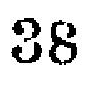38
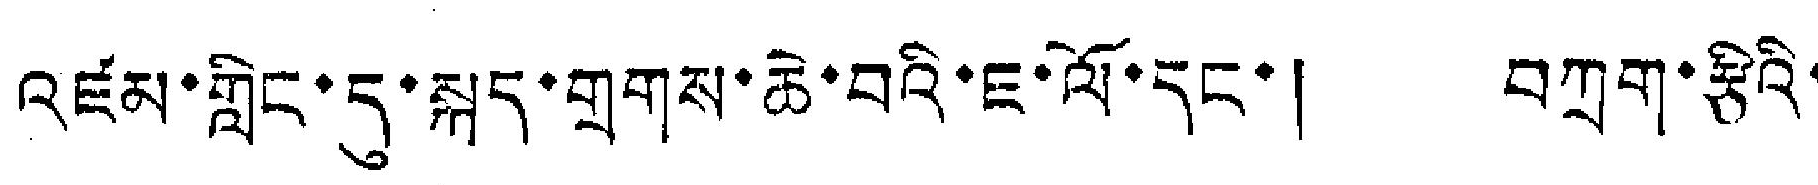འཛམ་གླིང་དུ་སྐད་གྲགས་ཆེ་བའི་ཇ་ལོ་དང་། བཀྲག་རྩིའི་
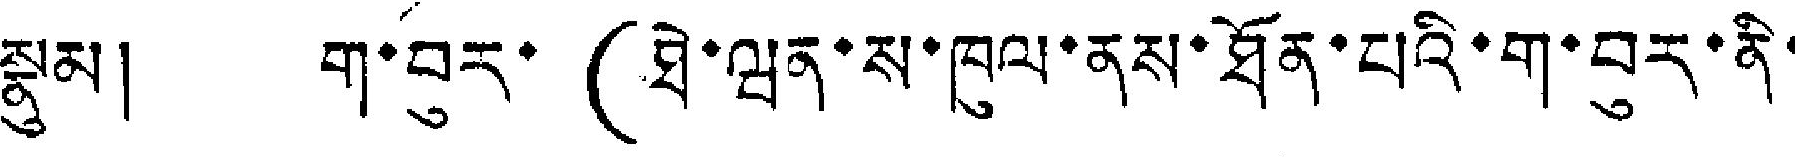རྣུམ། ག་བུར་(ཐེ་ཝན་ས་ཁུལ་ནས་ཐོན་པའི་ག་བུར་ནི་
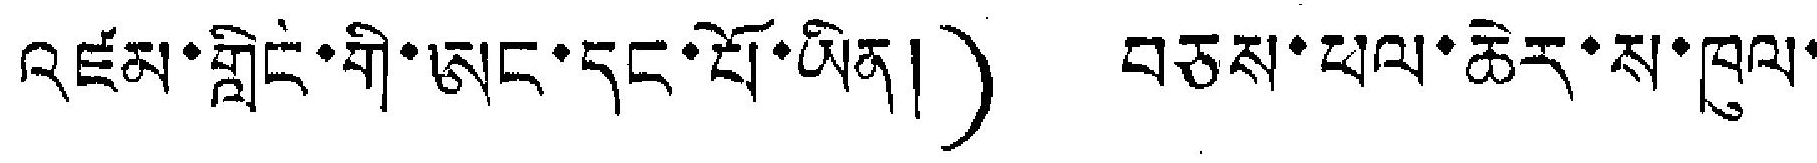འཛམ་གླིང་གི་ཨང་དང་པོ་ཡིན།) བཅས་ཕལ་ཆེར་ས་ཁུལ་
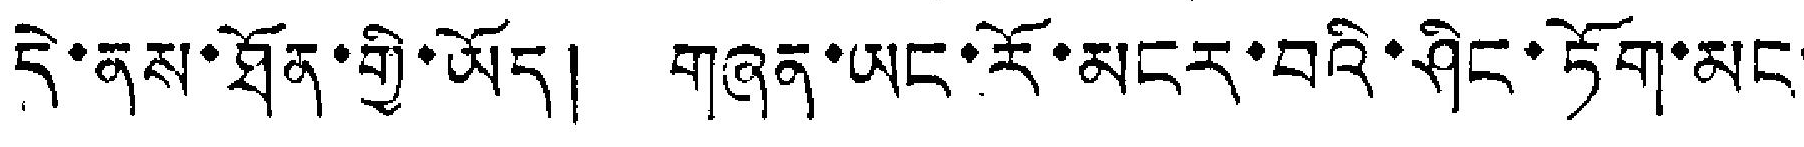དེ་ནས་ཐོན་གྱི་ཡོད། གཞན་ཡང་རོ་མངར་བའི་ཤིང་ཏོག་མང་
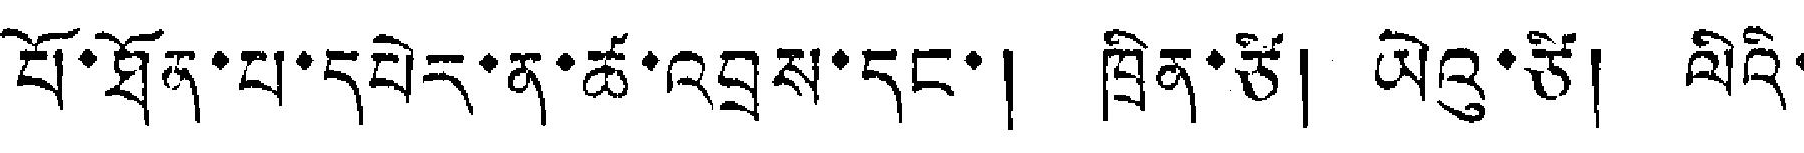པོ་ཐོན་པ་དཔེར་ན་ཚ་འབྲས་དང་། ཁྲིན་ཙི། ཡེའུ་ཙི། ལིའི་
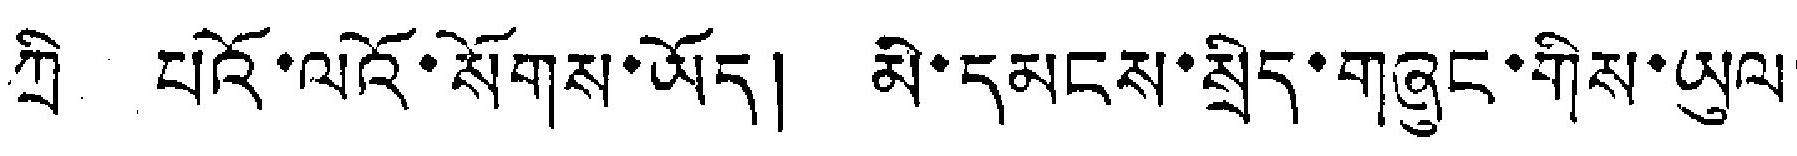ཀྲི པའོ་ལའོ་སོགས་ཡོད། མི་དམངས་སྲིད་གཞུང་གིས་ཡུལ་
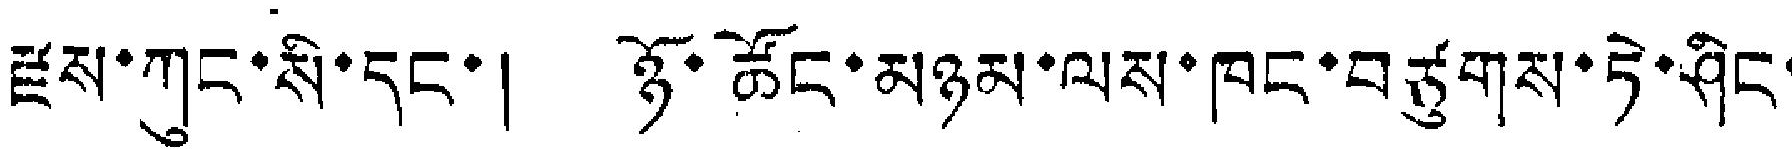རྫས་ཀུང་སི་དང་། ཉོ་ཚོང་མཉམ་ལས་ཁང་བཙུགས་ཏེ་ཤིང་
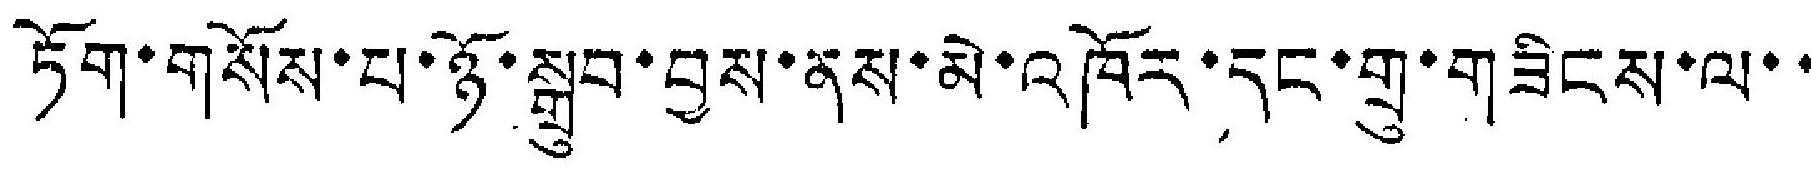ཏོག་གསོས་པ་ཉོ་སྒྲུབ་བྱས་ནས་མེ་འཁོར་དང་གྲུ་གཟིངས་ལ་་
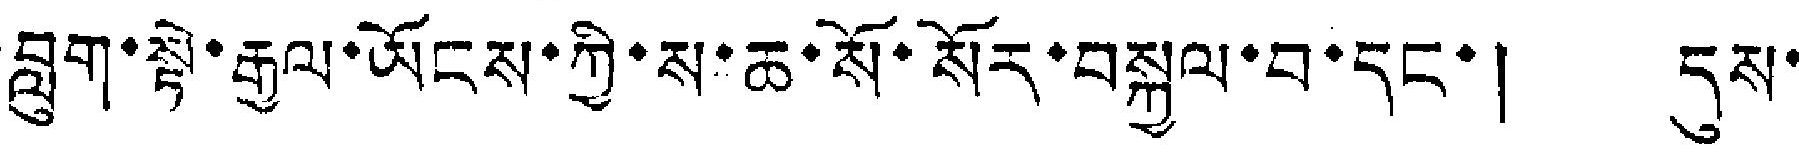བླུག་སྟེ་རྒྱལ་ཡོངས་ཀྱི་ས་ཆ་སོ་སོར་བསྐྱལ་བ་དང་། དུས་
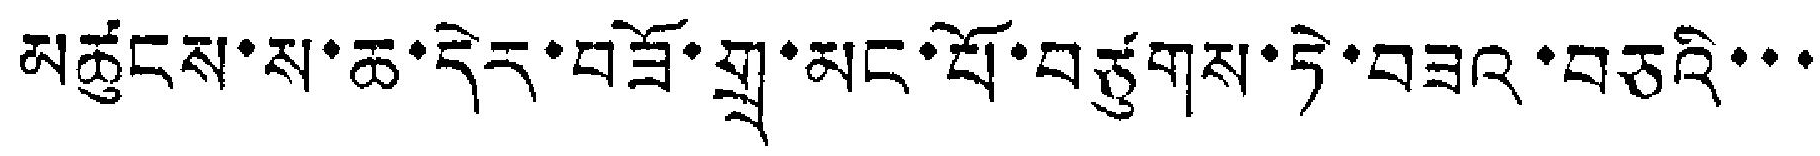མཚུངས་ས་ཆ་དེར་བཟོ་གྲྭ་མང་པོ་བཙུགས་ཏེ་བཟའ་བཅའི་་་
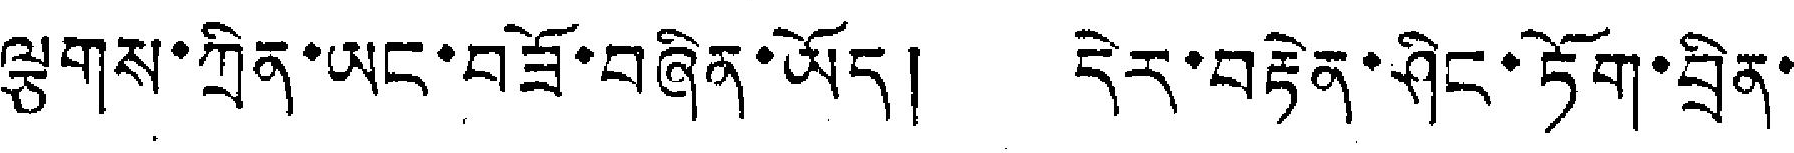ལྕགས་ཀྲིན་ཡང་བཟོ་བཞིན་ཡོད། དེར་བརྟེན་ཤིང་ཏོག་བྲིན་
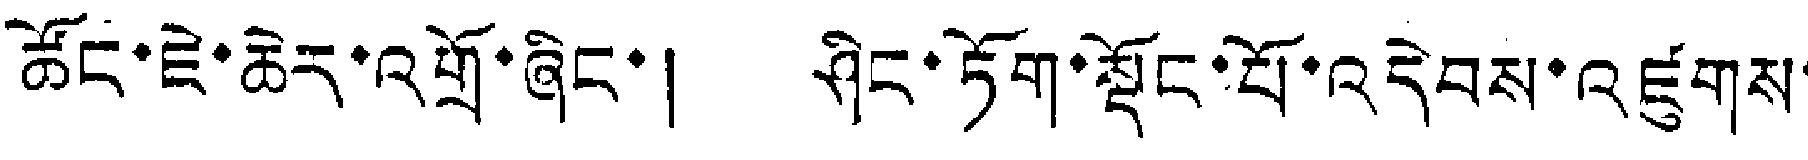ཚོང་ཇེ་ཆེར་འགྲོ་ཞིང་། ཤིང་ཏོག་སྡོང་པོ་འདེབས་འཛུགས་
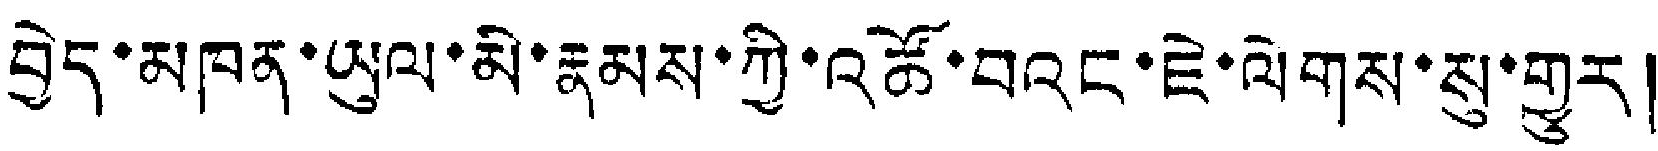བྱེད་མཁན་ཡུལ་མི་རྣམས་ཀྱི་འཚོ་བའང་ཇེ་ལེགས་སུ་གྱུར།
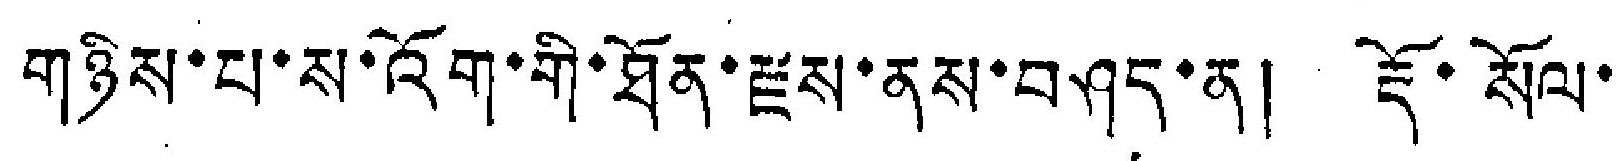གཉིས་པ་ས་འོག་གི་ཐོན་རྫས་ནས་བཤད་ན། རྡོ་སོལ་
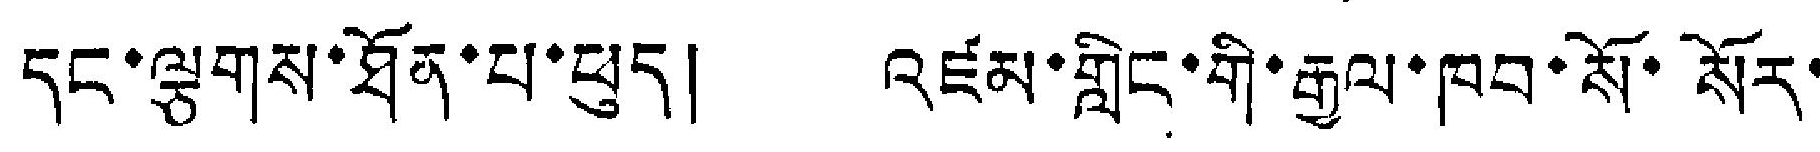དང་ལྕགས་ཐོན་པ་ཕུད། འཛམ་གླིང་གི་རྒྱལ་ཁབ་སོ་སོར་
